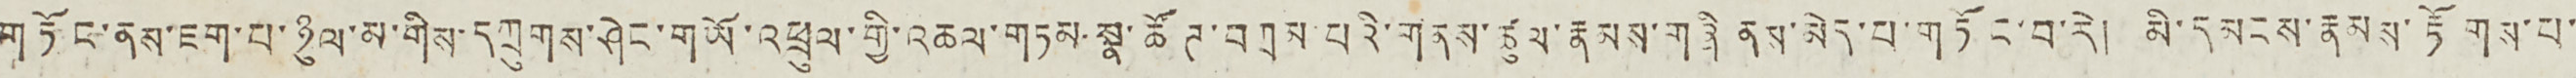གཏོང་ནས་ཇག་པ་ཉུལ་མ་གིས་དཀྲུགས་ཤེང་གཡོ་འཕྲུལ་གྱི་འཆལ་གཏམ་སྣ་ཚོཊ་བཀྲམ་པའི་གནས་ཚུལ་རྣམས་གཞི ནས་མེད་པ་གཏོང་བ་རེ། མི་དམངས་རྣམས་རྟོགས་པ་
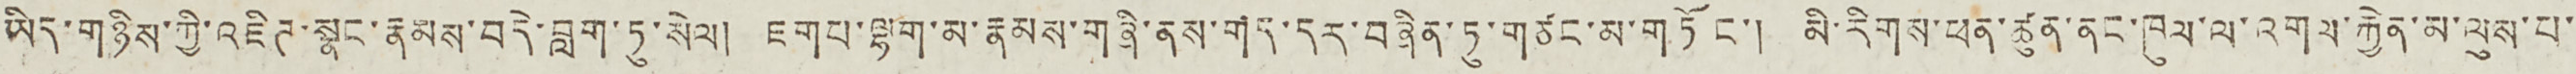ཡིད་གཉིས་ཀྱི་འཛིཊ་སྣང་རྣམས་བདེ་བླག་ཏུ་སེལ། ཇག པ་ལྷག་མ་རྣམས་གཞི་ནས་གད་དར་བཞིན་ཏུ་གཙང་མ་གཏོང་། མི་རིགས་ཕན་ཚུན་ནང་ཁུལ་ལ་འགལ་རྐྱེན་མ་ལུས་པ་
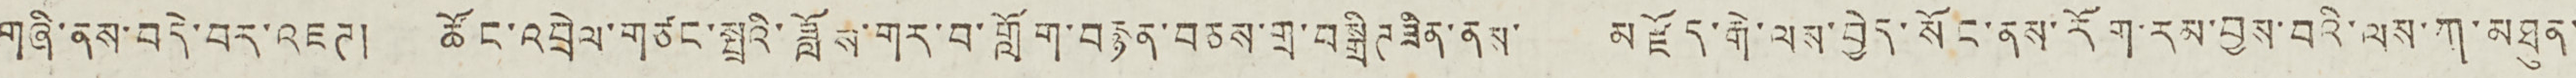གཞི་ནས་བདེ་བར་འཇཊ། ཚོང་འབྲེལ་གཙང་སྤྲའི་ཟློས་གར་བ་གློག་བརྙན་བཅས་གྲ་བསྒྲིཊ ཟིན་ནས་ མཛོད་རྒེ་ལས་བྱེད་སོང་ནས་རོག་རམ་བྱས་བའི་ལས་ཀ་མཐུན་
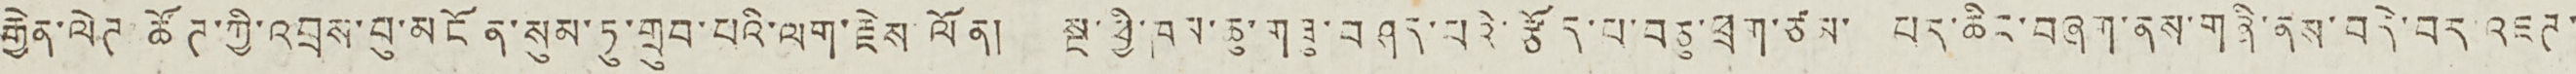རྒྱེན་ལེཊ ཚོཊ་ཀྱི་འབྲས་བུ་མངོན་སུམ་ཏུ་གྲུབ་པའི་ལག་རྗེས ལོན། སྔ་ཕྱི་ཁམ་ཆུ་གཟུ་བཤད་པའི་རྩོད་པ་བཅུ་ཕྲག་ཙམ་ བར་ཆིང་བཞག་ནས་གཞི་ནས་བདེ་བར འཇཊ་
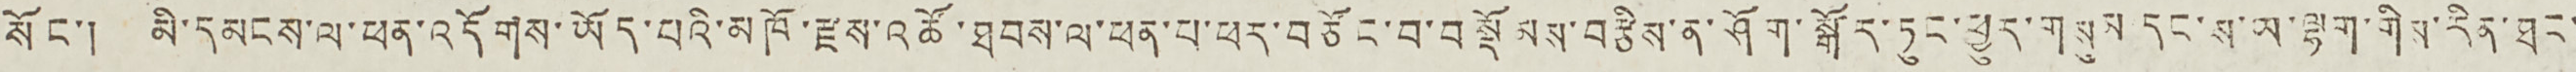སོང་། མི་དམངས་ལ་ཕན་འདོགས་ཡོད་པའི་མཁོ་རྫས་འཚོ་ཐབས་ལ་ཕན་པ་ཕར་བཙོང་བ་བསྡོམས་བརྩིས་ན་ཤོག་སྒོར་ཏུང་ཕྱུར་གསུམ དང་ས་ཡ་ལྷག་གིས་རིན་ཐང་
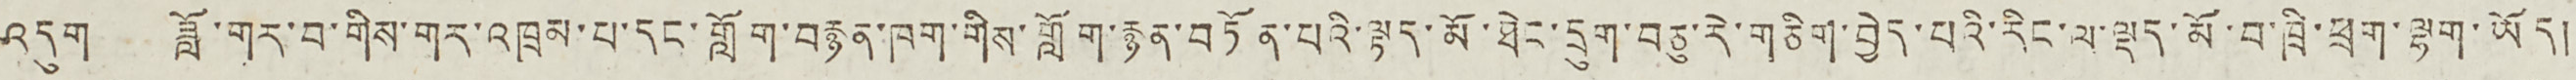འདུག ཟློ་གར་བ་གིས་གར་འཁྲམ་པ་དང་གློག་བརྙན་ཁག་གིས་གློག་རྙན་བཏོན་པའི་ལྟད་མོ་ཐེང་དྲུག་བཅུ་རེ་གཅིག་བྱེད་པའི་རིང་ལ་ལྡད་མོ་བ་ཁྲི་ཕྲག་ལྷག་ཡོད།
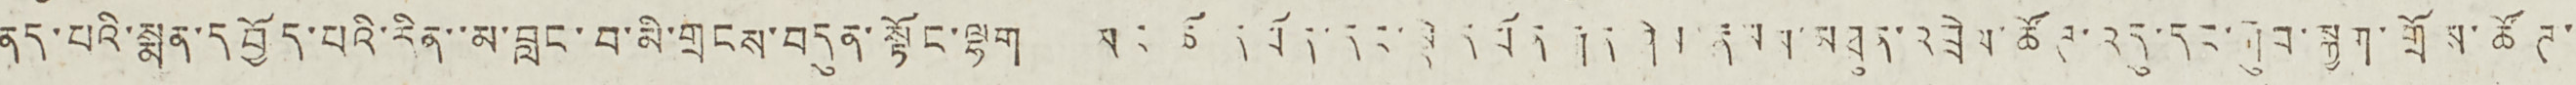ནད་པའི་སྨན་དབྱོད་པའི་རིན་་མ་བླང་བ་མི་གྲངས་བདུན་སྟོང་ལྷག ཡར་ཚོ་དཔོན་དང་སྡེ་དཔོན་རྒན་ཤེས་རྣམས་མཐུན་འབྲེལ་ཚོཊ་འདུ་དང་རྐུབ་སྐྱག་གྲོས་ཚོཊ་
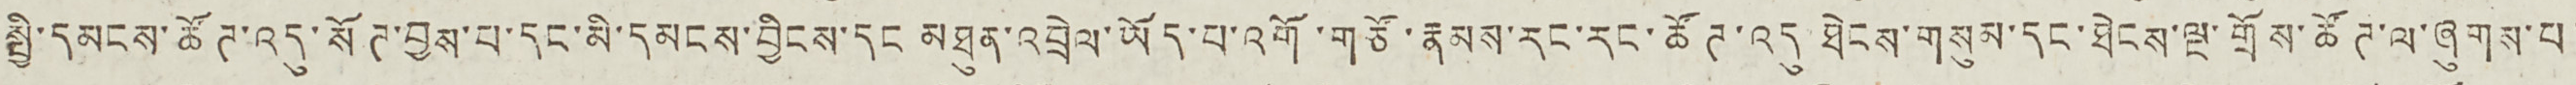སྤྱི་དམངས་ཚོཊ་འདུ་སོཊ་བྱས་པ་དང་མི་དམངས་བྱིངས་དང མཐུན་འབྲེལ་ཡོད་པ་འགོ་གཙོ་རྣམས་རང་རང་ཚོཊ་འདུ ཐེངས་གསུམ་དང་ཐེངས་ལྔ་གྲོས་ཚོཊ་ལ་ཞུགས་པ་
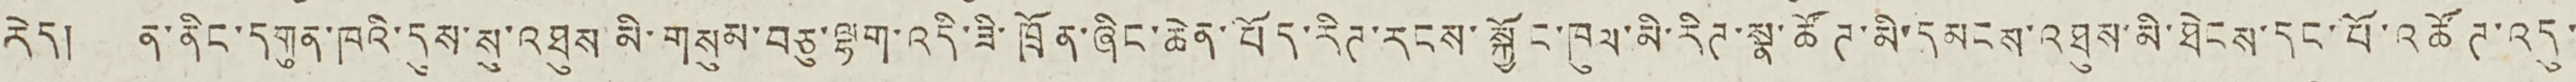རེད། ན་ནིང་དགུན་ཁའི་དུས་སུ་འཐུས མི་གསུམ་བཅུ་ལྷག་འདི་ཟི་ཁྲོན་ཞིང་ཆེན་བོད་རིཊ་རངས་སྐྱོང་ཁུལ་མི་རིཊ་སྣ་ཚོཊ་མི་དམངས་འཐུས་མི་ཐེངས་དང་པོ་འཚོཊ་འདུ་
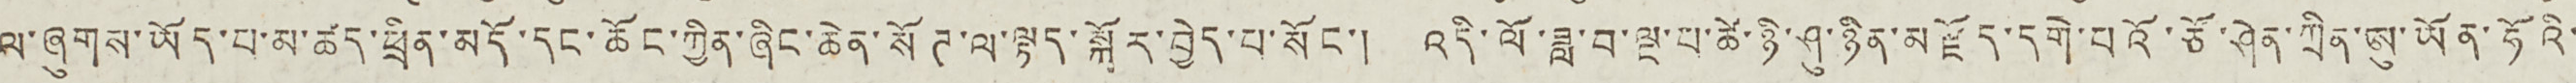ལ་ཞུགས་ཡོད་པ་མ་ཚད་ཕྲིན་མདོ་དང་ཆོང་ཀྱིན་ཞིང་ཆེན་སོཊ་ལ་ལྟད་སྐོར་བྱེད་པ་སོང་། འདི་ལོ་ཟླ་བ་ལྔ་པ་ཚེ་ཉི་ཤུ་ཉིན་མཛོད་དགེ་པའོ་ཙོ་ཤེན་ཀྲིན་ཨུ་ཡོན་ཧོའི་
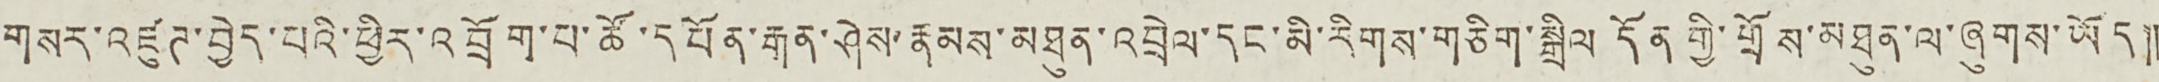གསར་འཛུཊ་བྱེད་པའི་ཕྱིར་འབྲོག་པ་ཚོ་དཔོན་རྒན་ཤེས་རྣམས་མཐུན་འབྲེལ་དང་མི་རིགས་གཅིག་སྒྲིལ དོན་གྱི་གྲོས་མཐུན་ལ་ཞུགས་ཡོད༎
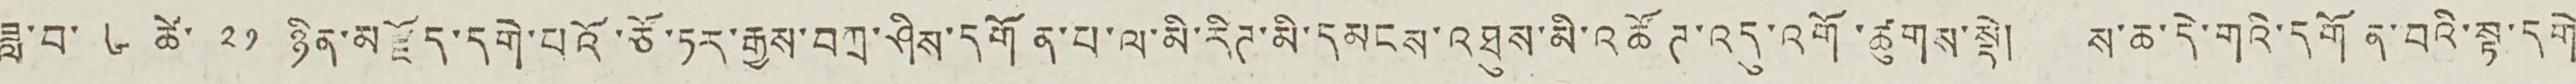ཟླ་བ་ ༦ ཚེ་ ༢༡ ཉིན་མཛོད་དགེ་པའོ་ཅོ་ཏར་རྒྱས་བཀྲ་ཤིས་དགོན་པ་ལ་མི་རིཊ་མི་དམངས་འཐུས་མི་འཚོཊ་འདུ་འགོ་ཚུགས་སྡེ། ས་ཆ་དེ་གའི་དགོན་བའི་སྟ་དགེ་
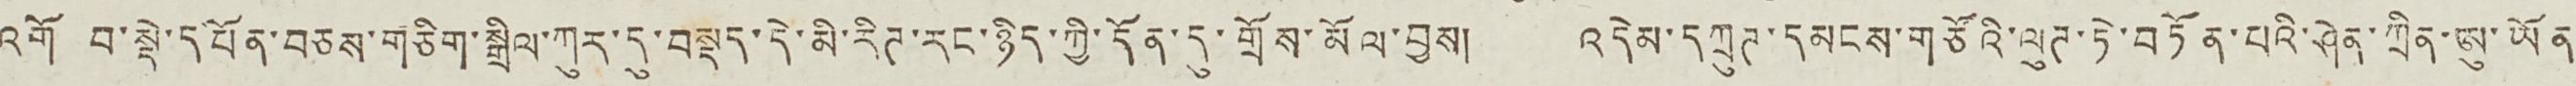འགོ བ་སྡེ་དཔོན་བཅས་གཅིག་སྒྲིལ་ཀུར་དུ་བསྡད་དེ་མི་རིཊ་རང་ཉིད་ཀྱི་དོན་དུ་གྲོས་མོལ་བྱས། འདེམ་དཀྲུཊ་དམངས་གཙོའི་ལུཊ་ཏེ་བཏོན་པའི་ཤེན་ཀྲིན་ཨུ་ཡོན་
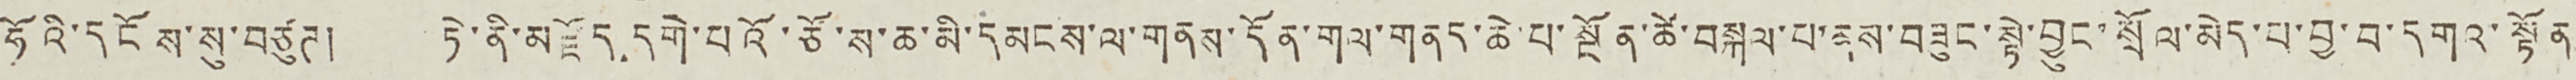ཧོའི་དངོས་སུ་བཙུཊ། ཏེ་ནི་མཛོད དགེ་པའོ་ཙོ་ས་ཆ་མི་དམངས་ལ་གནས་དོན་གལ་གནད་ཆེ་པ་སྔོན་ཚེ་བསྐལ་པ་ནས་བཟུང་སྟེ་བྱུང་སྲོལ་མེད་པ་བྱ་བ་དགའ་སྟོན་
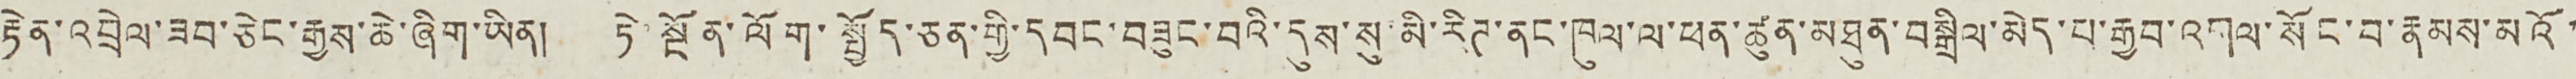རྟེན་འབྲེལ་ཟབ་ཅེང་རྒྱས་ཆེ་ཞིག་ཡིན། ཏེ་སྔོན་ལོག་སྤྱོད་ཅན་གྱི་དབང་བཟུང་བའི་དུས་སུ་མི་རིཊ་ནང་ཁུལ་ལ་ཕན་ཚུན་མཐུན་བསྒྲིལ་མེད་པ་རྒྱབ་འགལ་སོང་བ་རྣམས་མའོ་
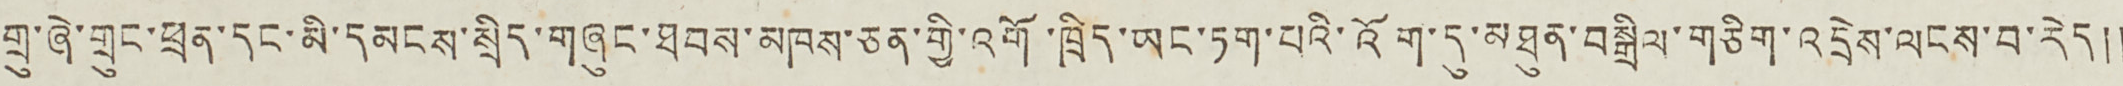གྲུ་ཞེ་གྲུང་ཕྲན་དང་མི་དམངས་སྲིད་གཞུང་ཐབས་མཁས་ཅན་གྱི་འགོ་ཁྲིད་ཡང་ཏག་པའི་འོག་དུ་མཐུན་བསྒྲིལ་གཅིག་འདྲེས་ལངས་བ་རེད༎
